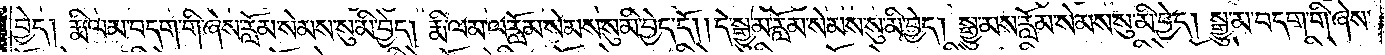བྱེད། རྨི་ལམ་བདག་གི་ཞེས་རློམ་སེམས་སུ་མི་བྱེད། རྨི་ལམ་ལ་རློམ་སེམས་སུ་མི་བྱེད་དོ། །དེ་སྒྱུ་མ་རློམ་སེམས་སུ་མི་བྱེད། སྒྱུ་མས་རློམ་སེམས་སུ་མི་བྱེད། སྒྱུ་མ་བདག་གི་ཞེས་
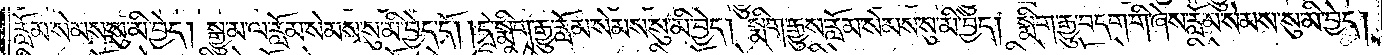རློམ་སེམས་སུ་མི་བྱེད། སྒྱུ་མ་ལ་རློམ་སེམས་སུ་མི་བྱེད་དོ། །དེ་སྨིག་རྒྱུ་རློམ་སེམས་སུ་མི་བྱེད། སྨིག་རྒྱུས་རློམ་སེམས་སུ་མི་བྱེད། སྨིག་རྒྱུ་བདག་གི་ཞེས་རློམ་སེམས་སུ་མི་བྱེད།
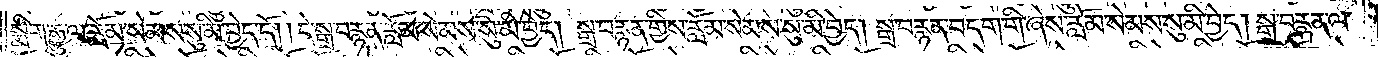སྨིག་རྒྱུ་ལ་རློམ་སེམས་སུ་མི་བྱེད་དོ། །དེ་སྒྲ་བརྙན་རློམ་སེམས་སུ་མི་བྱེད། སྒྲ་བརྙན་གྱིས་རློམ་སེམས་སུ་མི་བྱེད། སྒྲ་བརྙན་བདག་གི་ཞེས་རློམ་སེམས་སུ་མི་བྱེད། སྒྲ་བརྙན་ལ་
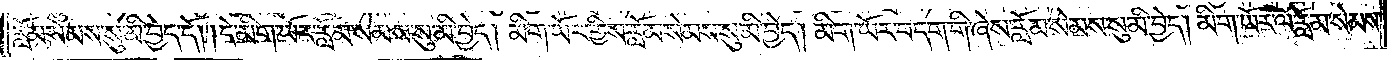རློམ་སེམས་སུ་མི་བྱེད་དོ། །དེ་མིག་ཡོར་རློམ་སེམས་སུ་མི་བྱེད། མིག་ཡོར་གྱིས་རློམ་སེམས་སུ་མི་བྱེད། མིག་ཡོར་བདག་གི་ཞེས་རློམ་སེམས་སུ་མི་བྱེད། མིག་ཡོར་ལ་རློམ་སེམས་
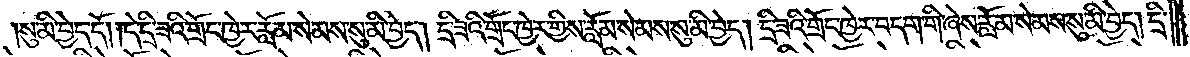སུ་མི་བྱེད་དོ། །དེ་དྲི་ཟའི་གྲོང་ཁྱེར་རློམ་སེམས་སུ་མི་བྱེད། དྲི་ཟའི་གྲོང་ཁྱེར་གྱིས་རློམ་སེམས་སུ་མི་བྱེད། དྲི་ཟའི་གྲོང་ཁྱེར་བདག་གི་ཞེས་རློམ་སེམས་སུ་མི་བྱེད། དྲི་
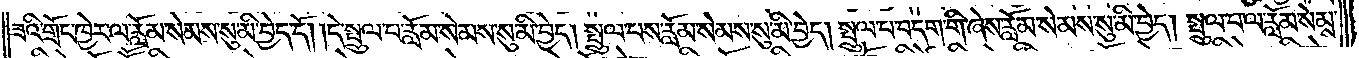ཟའི་གྲོང་ཁྱེར་ལ་རློམ་སེམས་སུ་མི་བྱེད་དོ། །དེ་སྤྲུལ་པ་རློམ་སེམས་སུ་མི་བྱེད། སྤྲུལ་པས་རློམ་སེམས་སུ་མི་བྱེད། སྤྲུལ་པ་བདག་གི་ཞེས་རློམ་སེམས་སུ་མི་བྱེད། སྤྲུལ་པ་ལ་རློམ་སེམས་
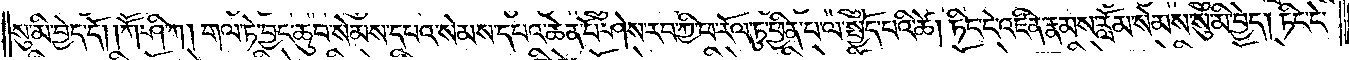སུ་མི་བྱེད་དོ། །ཀཽ་ཤི་ཀ། གལ་ཏེ་བྱང་ཆུབ་སེམས་དཔའ་སེམས་དཔའ་ཆེན་པོ་ཤེས་རབ་ཀྱི་ཕ་རོལ་ཏུ་ཕྱིན་པ་ལ་སྤྱོད་པའི་ཚེ། ཏིང་ངེ་འཛིན་རྣམས་རློམ་སེམས་སུ་མི་བྱེད། ཏིང་ངེ་
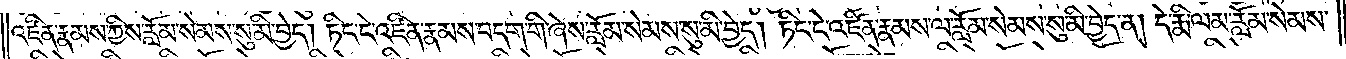འཛིན་རྣམས་ཀྱིས་རློམ་སེམས་སུ་མི་བྱེད། ཏིང་ངེ་འཛིན་རྣམས་བདག་གི་ཞེས་རློམ་སེམས་སུ་མི་བྱེད། ཏིང་ངེ་འཛིན་རྣམས་ལ་རློམ་སེམས་སུ་མི་བྱེད་ན། དེ་རྨི་ལམ་རློམ་སེམས་
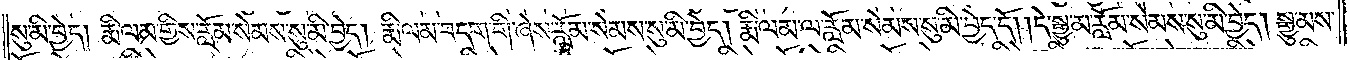སུ་མི་བྱེད། རྨི་ལམ་གྱིས་རློམ་སེམས་སུ་མི་བྱེད། རྨི་ལམ་བདག་གི་ཞེས་རློམ་སེམས་སུ་མི་བྱེད། རྨི་ལམ་ལ་རློམ་སེམས་སུ་མི་བྱེད་དོ། །དེ་སྒྱུ་མ་རློམ་སེམས་སུ་མི་བྱེད། སྒྱུ་མས་
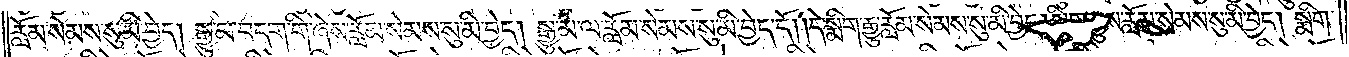རློམ་སེམས་སུ་མི་བྱེད། སྒྱུ་མ་བདག་གི་ཞེས་རློམ་སེམས་སུ་མི་བྱེད། སྒྱུ་མ་ལ་རློམ་སེམས་སུ་མི་བྱེད་དོ། །དེ་སྨིག་རྒྱུ་རློམ་སེམས་སུ་མི་བྱེད། སྨིག་རྒྱུས་རློམ་སེམས་སུ་མི་བྱེད། སྨིག་
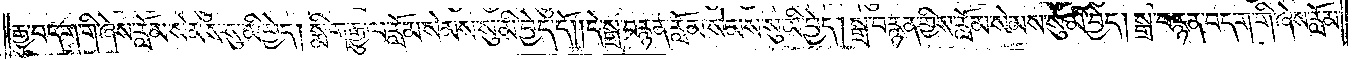རྒྱུ་བདག་གི་ཞེས་རློམ་སེམས་སུ་མི་བྱེད། སྨིག་རྒྱུ་ལ་རློམ་སེམས་སུ་མི་བྱེད་དོ། །དེ་སྒྲ་བརྙན་རློམ་སེམས་སུ་མི་བྱེད། སྒྲ་བརྙན་གྱིས་རློམ་སེམས་སུ་མི་བྱེད། སྒྲ་བརྙན་བདག་གི་ཞེས་རློམ་
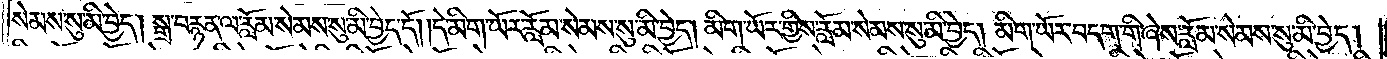སེམས་སུ་མི་བྱེད། སྒྲ་བརྙན་ལ་རློམ་སེམས་སུ་མི་བྱེད་དོ། །དེ་མིག་ཡོར་རློམ་སེམས་སུ་མི་བྱེད། མིག་ཡོར་གྱིས་རློམ་སེམས་སུ་མི་བྱེད། མིག་ཡོར་བདག་གི་ཞེས་རློམ་སེམས་སུ་མི་བྱེད།
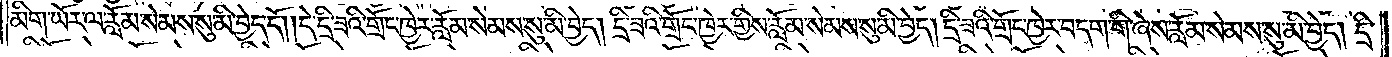མིག་ཡོར་ལ་རློམ་སེམས་སུ་མི་བྱེད་དོ། །དེ་དྲི་ཟའི་གྲོང་ཁྱེར་རློམ་སེམས་སུ་མི་བྱེད། དྲི་ཟའི་གྲོང་ཁྱེར་གྱིས་རློམ་སེམས་སུ་མི་བྱེད། དྲི་ཟའི་གྲོང་ཁྱེར་བདག་གི་ཞེས་རློམ་སེམས་སུ་མི་བྱེད། དྲི་
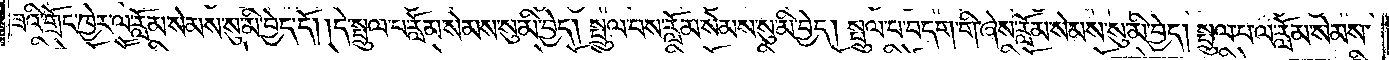ཟའི་གྲོང་ཁྱེར་ལ་རློམ་སེམས་སུ་མི་བྱེད་དོ། །དེ་སྤྲུལ་པ་རློམ་སེམས་སུ་མི་བྱེད། སྤྲུལ་པས་རློམ་སེམས་སུ་མི་བྱེད། སྤྲུལ་པ་བདག་གི་ཞེས་རློམ་སེམས་སུ་མི་བྱེད། སྤྲུལ་པ་ལ་རློམ་སེམས་
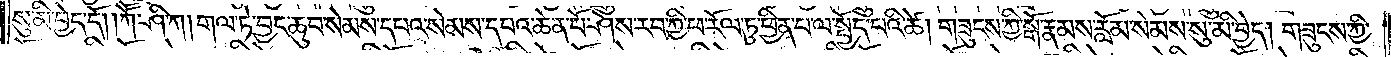སུ་མི་བྱེད་དོ། །ཀཽ་ཤི་ཀ། གལ་ཏེ་བྱང་ཆུབ་སེམས་དཔའ་སེམས་དཔའ་ཆེན་པོ་ཤེས་རབ་ཀྱི་ཕ་རོལ་ཏུ་ཕྱིན་པ་ལ་སྤྱོད་པའི་ཚེ། གཟུངས་ཀྱི་སྒོ་རྣམས་རློམ་སེམས་སུ་མི་བྱེད། གཟུངས་ཀྱི་
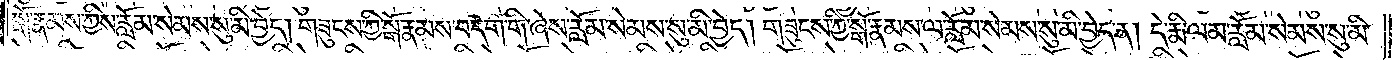སྒོ་རྣམས་ཀྱིས་རློམ་སེམས་སུ་མི་བྱེད། གཟུགས་ཀྱི་སྒོ་རྣམས་བདག་གི་ཞེས་རློམ་སེམས་སུ་མི་བྱེད། གཟུངས་ཀྱི་སྒོ་རྣམས་ལ་རློམ་སེམས་སུ་མི་བྱེད་ན། དེ་རྨི་ལམ་རློམ་སེམས་སུ་མི་
